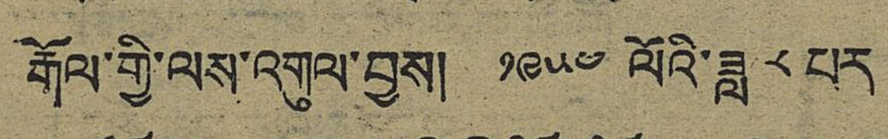རྒོལ་གྱི་ལས་འགུལ་བྱས། ༡༩༥༤ ལོའི་ཟླ ༨ པར་
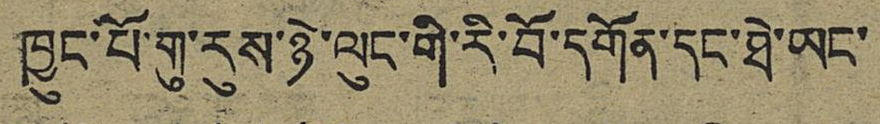ཁྱུང་པོ་གུ་རུས་ཉེ་ལུང་གི་རི་བོ་དགོན་དང་ཐེ་ཡང་
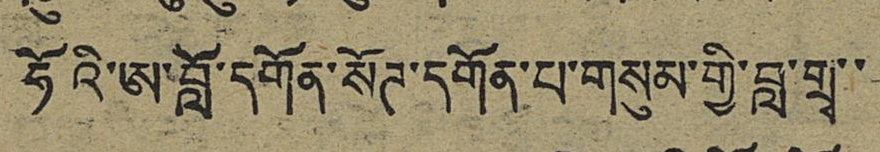ཧོའི་ཨ་བློ་དགོན་སོཊ་དགོན་པ་གསུམ་གྱི་བླ་གྲྭ་་
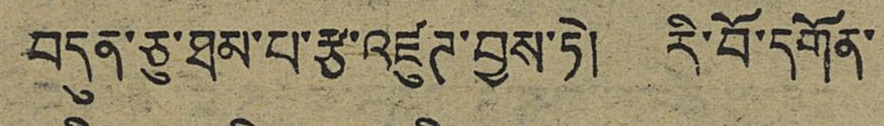བདུན་ཅུ་ཐམ་པ་རྩ་འཛུཊ་བྱས་ཏེ། རི་བོ་དགོན་
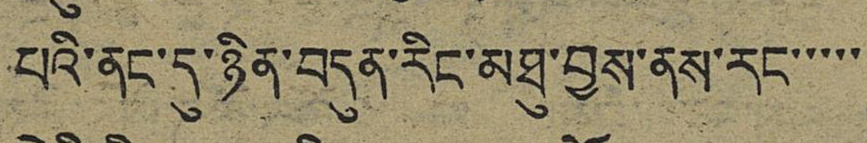པའི་ནང་དུ་ཉིན་བདུན་རིང་མཐུ་བྱས་ནས་རང་་་་
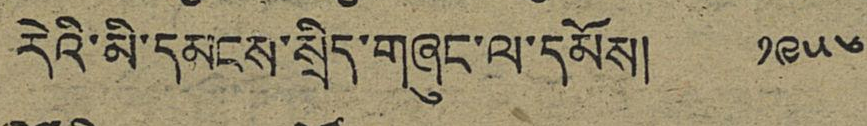རེའི་མི་དམངས་སྲིད་གཞུང་ལ་དམོས། ༡༩༥༦
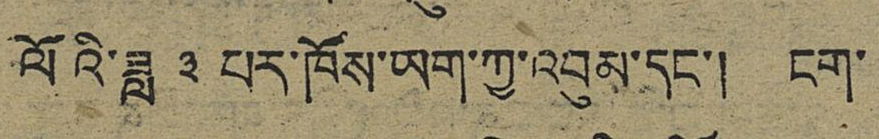ལོའི་ཟླ ༣ པར་ཁོས་ཡག་ཀྱ་འབུམ་དང་། ངག་
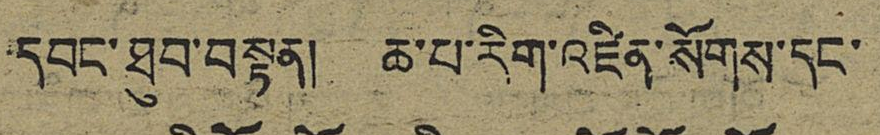དབང་ཐུབ་བསྟན། ཆ་པ་རིག་འཛིན་སོགས་དང་
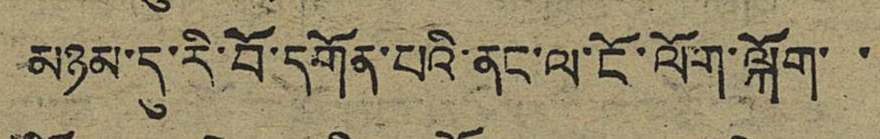མཉམ་དུ་རི་བོ་དགོན་པའི་ནང་ལ་ངོ་ལོག་ལྐོག་་
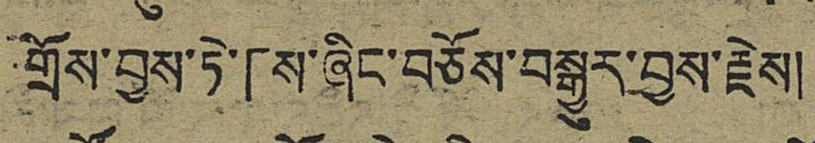གྲོས་བྱས་ཏེ་「ས་ཞིང་བཅོས་བསྒྱུར་བྱས་རྗེས།
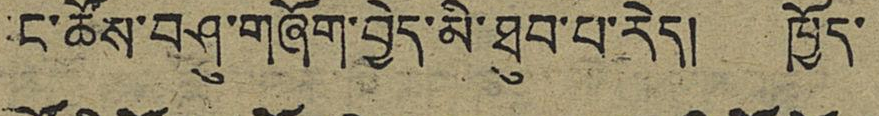ང་ཚོས་བཤུ་གཞོག་བྱེད་མི་ཐུབ་པ་རེད། ཁྱོད་
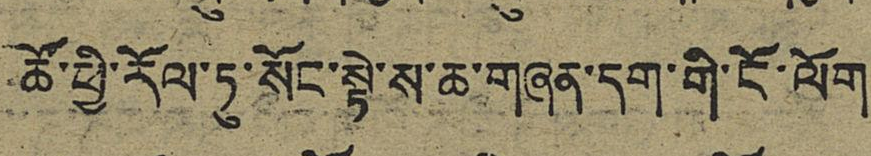ཚོ་ཕྱི་རོལ་ཏུ་སོང་སྟེ་ས་ཆ་གཞན་དག་གི་ངོ་ལོག
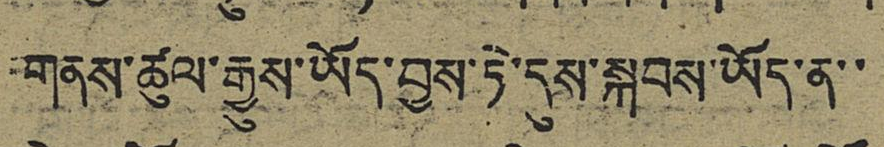གནས་ཚུལ་རྒྱུས་ཡོད་བྱས་ཏེ་དུས་སྐབས་ཡོད་ན་་
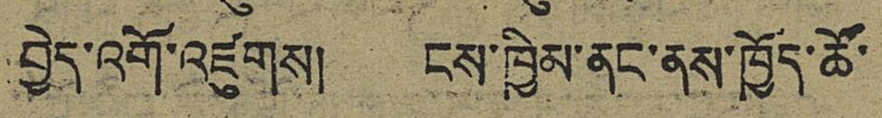བྱེད་འགོ་འཛུགས། ངས་ཁྱིམ་ནང་ནས་ཁྱོད་ཚོ་
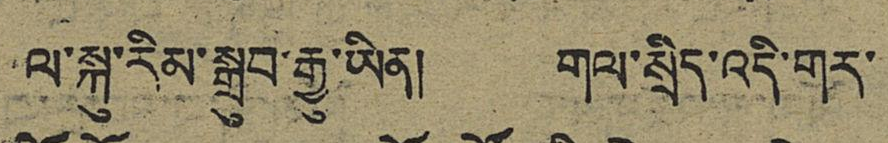ལ་སྐུ་རིམ་སྒྲུབ་རྒྱུ་ཡིན། གལ་སྲིད་འདི་གར་
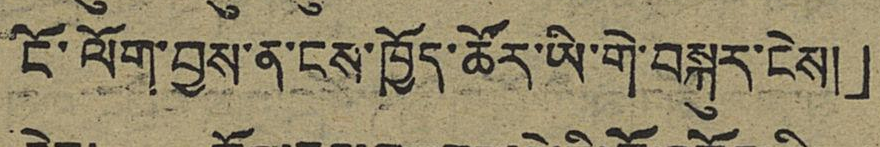ངོ་ལོག་བྱས་ན་ངས་ཁྱོད་ཚོར་ཡི་གེ་བསྐུར་ངེས།」
